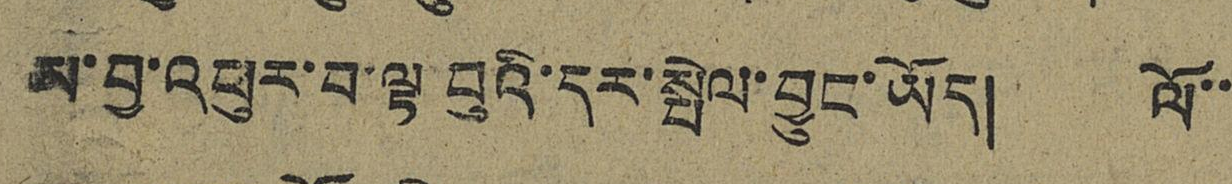མ་བྱ་འཕུར་བ་ལྟ་བུའི་དར་སྤེལ་བྱུང་ཡོད། ལོ་་
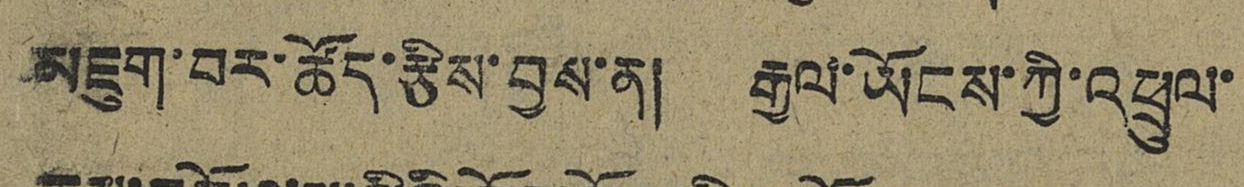མཇུག་བར་ཚོད་རྩིས་བྱས་ན། རྒྱལ་ཡོངས་ཀྱི་འཕྲུལ་
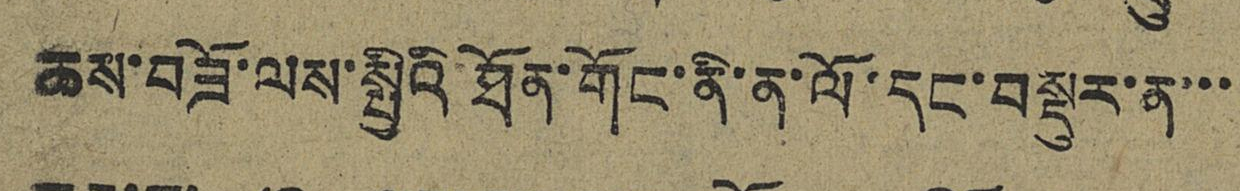ཆས་བཟོ་ལས་སྤྱིའི་ཐོན་གོང་ནི་ན་ལོ་དང་བསྡུར་ན་་
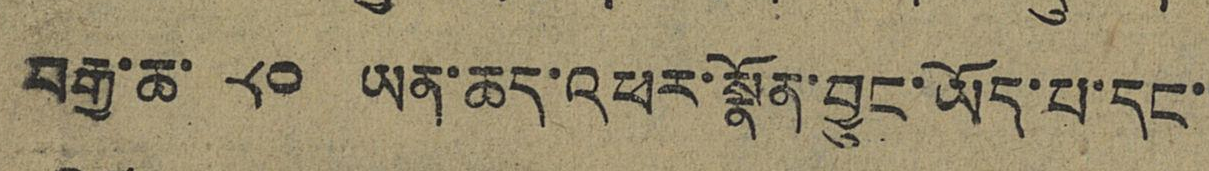བརྒྱ་ཆ་ ༨༠ ཡན་ཆད་འཕར་སྣོན་བྱུང་ཡོད་པ་དང་་
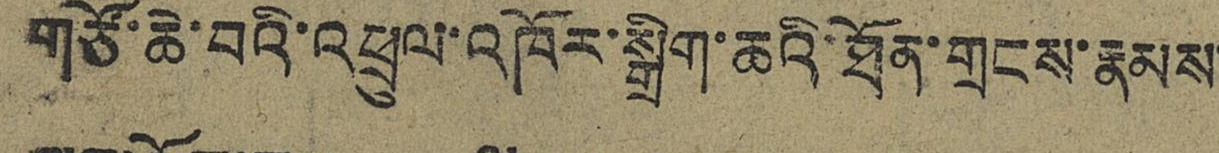གཙོ་ཆེ་བའི་འཕྲུལ་འཁོར་སྒྲིག་ཆའི་ཐོན་གྲངས་རྣམས
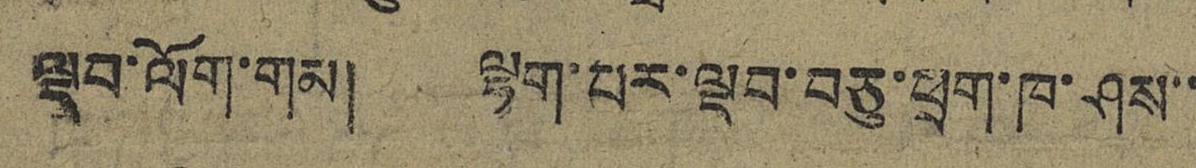ལྡབ་ལོག་གམ། ལྷག་པར་ལྡབ་བཅུ་ཕྲག་ཁ་ཤས་་
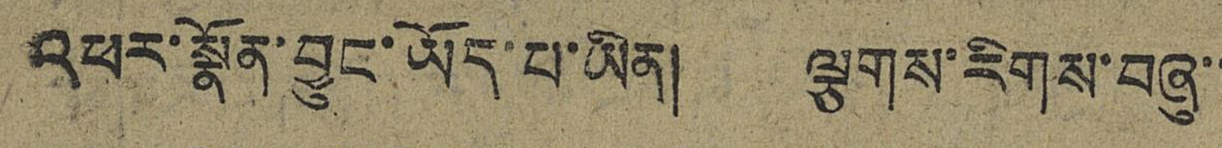འཕར་སྣོན་བྱུང་ཡོད་པ་ཡིན། ལྕགས་རིགས་བཞུ་་
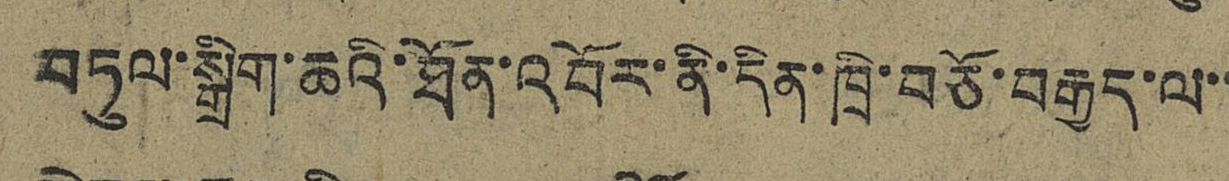བཏུལ་སྒྲིག་ཆའི་ཐོན་འབོར་ནི་དིན་ཁྲི་བཅོ་བརྒྱད་ལ་་
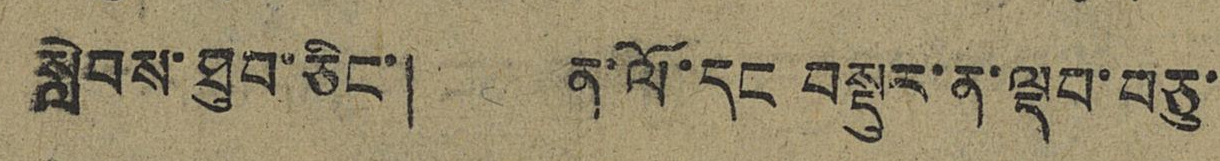སླེབས་ཐུབ་ཅིང་། ན་ལོ་དང བསྡུར་ན་ལྡབ་བཅུ་
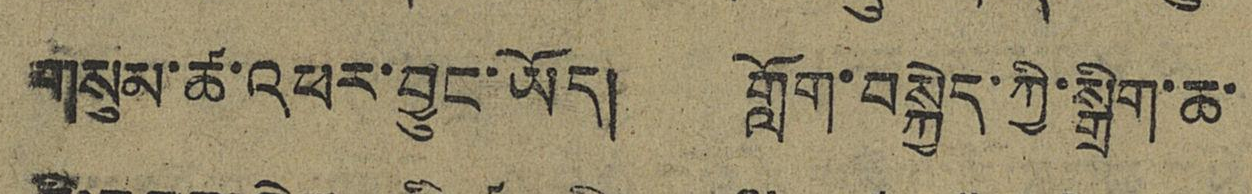གསུམ་ཚ་འཕར་བྱུང་ཡོད། གློག་བསྐྱེད་ཀྱི་སྒྲིག་ཆ་
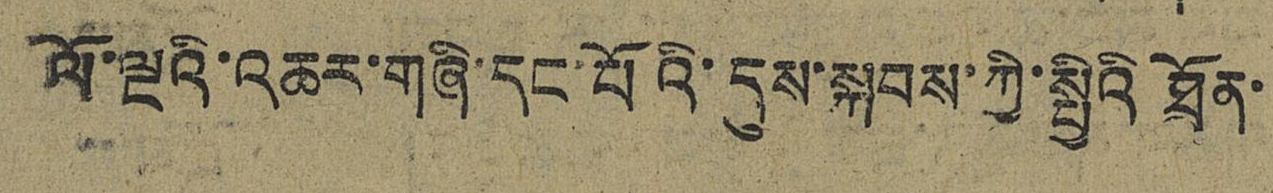ལོ་ལྔའི་འཆར་གཞི་དང་པོའི་དུས་སྐབས་ཀྱི་སྤྱིའི་ཐོན་
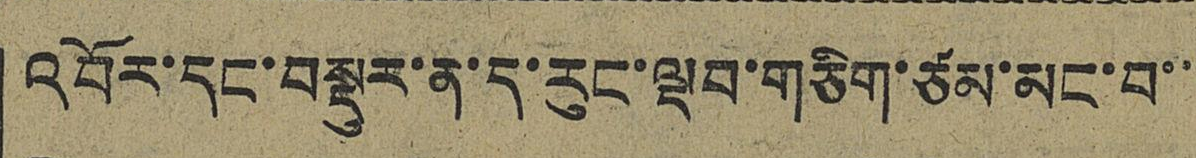འབོར་དང་བསྡུར་ན་ད་རུང་ལྡབ་གཅིག་ཙམ་མང་བ་་་
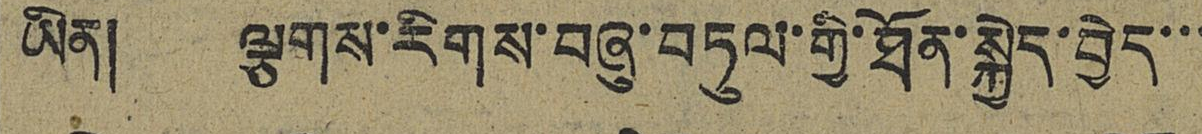ཡིན། ལྕགས་རིགས་བཞུ་བཏུལ་གྱི་ཐོན་སྐྱེད་བྱེད་་་
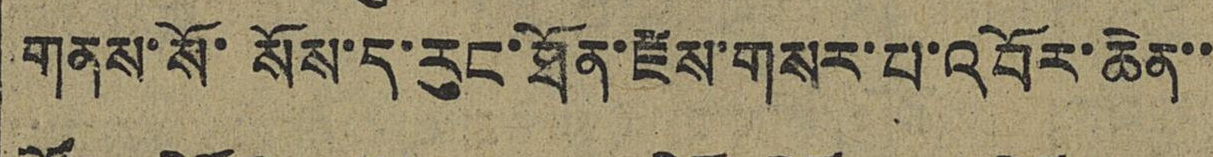གནས་སོ་སོས་ད་རུང་ཐོན་རྫས་གསར་པ་འབོར་ཆེན་་
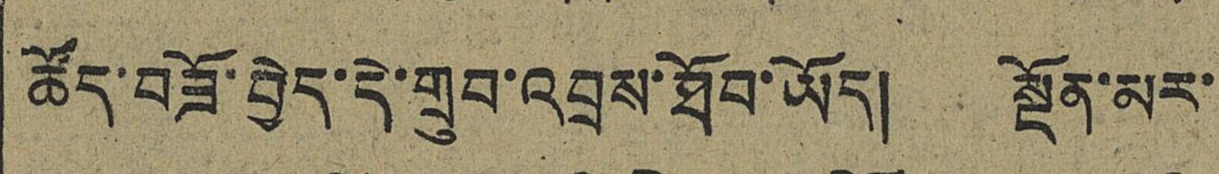ཚོད་བཟོ་བྱེད་དེ་གྲུབ་འབྲས་ཐོབ་ཡོད། སྔོན་མར་
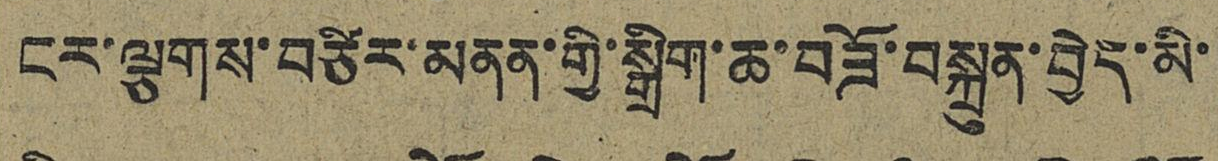ངར་ལྕགས་བཙིར་མནན་གྱི་སྒྲིག་ཆ་བཟོ་བསྐྲུན་བྱེད་མི་
